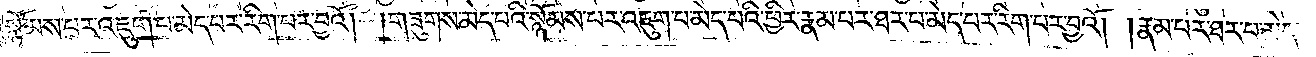སྙོམས་པར་འཇུག་པ་མེད་པར་རིག་པར་བྱའོ། །གཟུགས་མེད་པའི་སྙོམས་པར་འཇུག་པ་མེད་པའི་ཕྱིར་རྣམ་པར་ཐར་པ་མེད་པར་རིག་པར་བྱའོ། །རྣམ་པར་ཐར་པ་མེད་
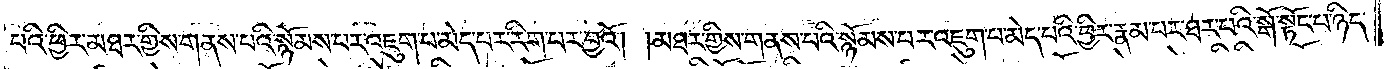པའི་ཕྱིར་མཐར་གྱིས་གནས་པའི་སྙོམས་པར་འཇུག་པ་མེད་པར་རིག་པར་བྱའོ། །མཐར་གྱིས་གནས་པའི་སྙོམས་པར་འཇུག་པ་མེད་པའི་ཕྱིར་རྣམ་པར་ཐར་པའི་སྒོ་སྟོང་པ་ཉིད་
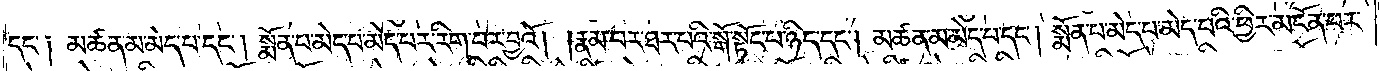དང༌། མཚན་མ་མེད་པ་དང༌། སྨོན་པ་མེད་པ་མེད་པར་རིག་པར་བྱའོ། །རྣམ་པར་ཐར་པའི་སྒོ་སྟོང་པ་ཉིད་དང༌། མཚན་མ་མེད་པ་དང༌། སྨོན་པ་མེད་པ་མེད་པའི་ཕྱིར་མངོན་པར་
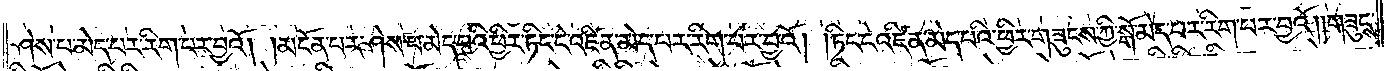ཤེས་པ་མེད་པར་རིག་པར་བྱའོ། །མངོན་པར་ཤེས་པ་མེད་པའི་ཕྱིར་ཏིང་ངེ་འཛིན་མེད་པར་རིག་པར་བྱའོ། །ཏིང་ངེ་འཛིན་མེད་པའི་ཕྱིར་གཟུངས་ཀྱི་སྒོ་མེད་པར་རིག་པར་བྱའོ། །གཟུངས་
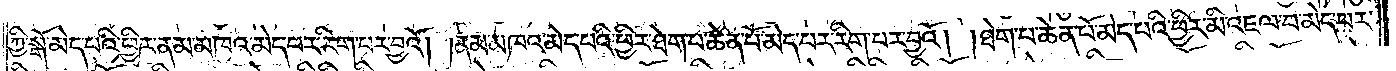ཀྱི་སྒོ་མེད་པའི་ཕྱིར་ནམ་མཁའ་མེད་པར་རིག་པར་བྱའོ། །ནམ་མཁའ་མེད་པའི་ཕྱིར་ཐེག་པ་ཆེན་པོ་མེད་པར་རིག་པར་བྱའོ། །ཐེག་པ་ཆེན་པོ་མེད་པའི་ཕྱིར་མི་འཇལ་བ་མེད་པར་
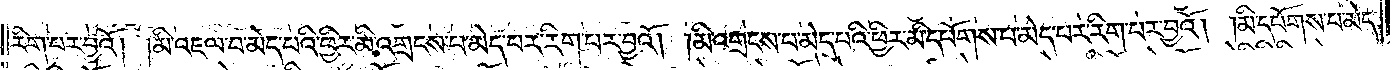རིག་པར་བྱའོ། །མི་འཇལ་བ་མེད་པའི་ཕྱིར་མི་འགྲངས་པ་མེད་པར་རིག་པར་བྱའོ། །མི་འགྲངས་པ་མེད་པའི་ཕྱིར་མི་དཔོགས་པ་མེད་པར་རིག་པར་བྱའོ། །མི་དཔོགས་པ་མེད་
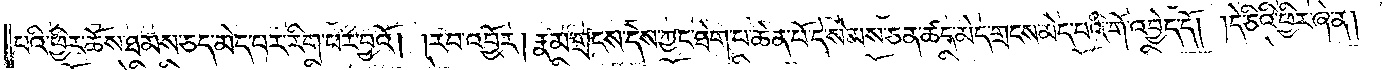པའི་ཕྱིར་ཆོས་ཐམས་ཅད་མེད་པར་རིག་པར་བྱའོ། །རབ་འབྱོར། རྣམ་གྲངས་དེས་ཀྱང་ཐེག་པ་ཆེན་པོ་དེ་སེམས་ཅན་ཆད་མེད་གྲངས་མེད་པའི་གོ་འབྱེད་དོ། །དེ་ཅིའི་ཕྱིར་ཞེ་ན།
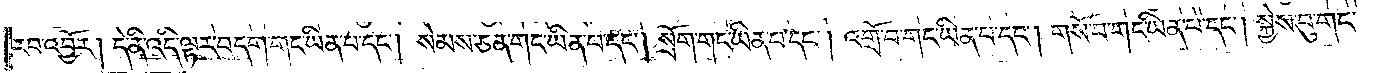རབ་འབྱོར། དེ་ནི་འདི་ལྟར་བདག་གང་ཡིན་པ་དང༌། སེམས་ཅན་གང་ཡིན་པ་དང༌། སྲོག་གང་ཡིན་པ་དང༌། འགྲོ་བ་གང་ཡིན་པ་དང༌། གསོ་བ་གང་ཡིན་པ་དང༌། སྐྱེས་བུ་གང་
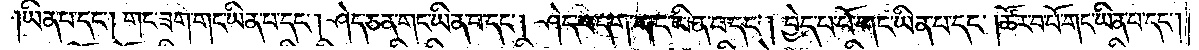ཡིན་པ་དང༌། གང་ཟག་གང་ཡིན་པ་དང༌། ཤེད་ཅན་གང་ཡིན་པ་དང༌། ཤེད་བདག་གང་ཡིན་པ་དང༌། བྱེད་པ་པོ་གང་ཡིན་པ་དང༌། ཚོར་བ་པོ་གང་ཡིན་པ་དང༌།
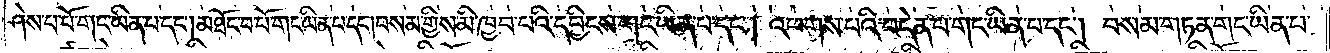ཤེས་པ་པོ་གང་ཡིན་པ་དང༌། མཐོང་བ་པོ་གང་ཡིན་པ་དང༌།བསམ་གྱིས་མི་ཁྱབ་པའི་དབྱིངས་གང་ཡིན་པ་དང༌། འཕགས་པའི་བདེན་པ་གང་ཡིན་པ་དང༌། བསམ་གཏན་གང་ཡིན་པ་
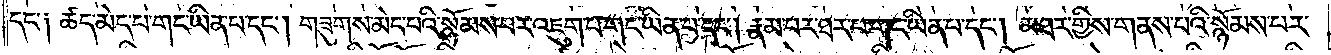དང༌། ཚད་མེད་པ་གང་ཡིན་པ་དང༌། གཟུགས་མེད་པའི་སྙོམས་པར་འཇུག་པ་གང་ཡིན་པ་དང༌། རྣམ་པར་ཐར་པ་གང་ཡིན་པ་དང༌། མཐར་གྱིས་གནས་པའི་སྙོམས་པར་
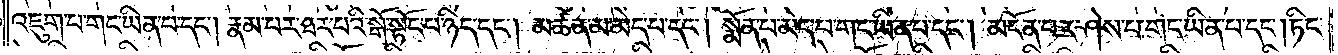འཇུག་པ་གང་ཡིན་པ་དང༌། རྣམ་པར་ཐར་པའི་སྒོ་སྟོང་པ་ཉིད་དང༌། མཚན་མ་མེད་པ་དང༌། སྨོན་པ་མེད་པ་གང་ཡིན་པ་དང༌། མངོན་པར་ཤེས་པ་གང་ཡིན་པ་དང༌། ཏིང་
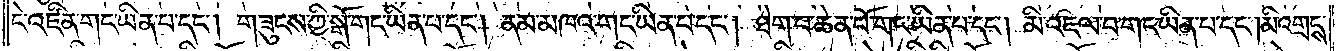ངེ་འཛིན་གང་ཡིན་པ་དང༌། གཟུངས་ཀྱི་སྒོ་གང་ཡིན་པ་དང༌། ནམ་མཁའ་གང་ཡིན་པ་དང༌། ཐེག་པ་ཆེན་པོ་གང་ཡིན་པ་དང༌། མི་འཇལ་བ་གང་ཡིན་པ་དང༌། མི་འགྲངས་
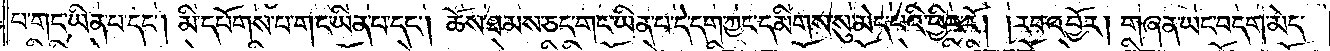པ་གང་ཡིན་པ་དང༌། མི་དཔོགས་པ་གང་ཡིན་པ་དང་ཆོས་ཐམས་ཅད་གང་ཡིན་པ་དེ་དག་ཀྱང་དམིགས་སུ་མེད་པའི་ཕྱིར་རོ། །རབ་འབྱོར། གཞན་ཡང་བདག་མེད་
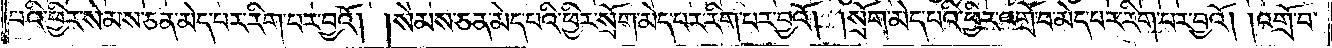པའི་ཕྱིར། སེམས་ཅན་མེད་པར་རིག་པར་བྱའོ། །སེམས་ཅན་མེད་པའི་ཕྱིར་སྲོག་མེད་པར་རིག་པར་བྱའོ། །སྲོག་མེད་པའི་ཕྱིར་འགྲོ་བ་མེད་པར་རིག་པར་བྱའོ། །འགྲོ་བ་
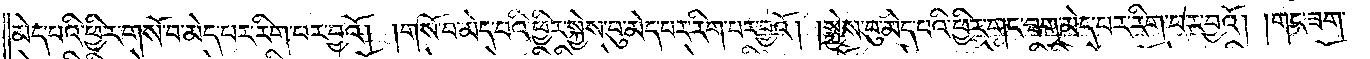མེད་པའི་ཕྱིར་གསོ་བ་མེད་པར་རིག་པར་བྱའོ། །གསོ་བ་མེད་པའི་ཕྱིར་སྐྱེས་བུ་མེད་པར་རིག་པར་བྱའོ། །སྐྱེས་བུ་མེད་པའི་ཕྱིར་གང་ཟག་མེད་པར་རིག་པར་བྱའོ། །གང་ཟག་
